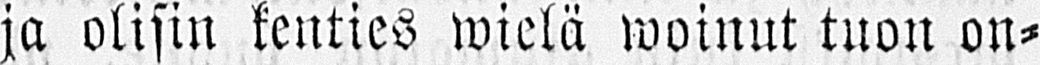ja olisin kenties wielä woinut tuon on-
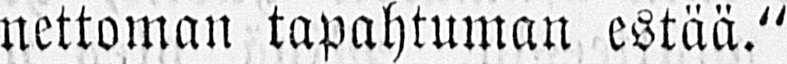nettoman tapahtuman estää."
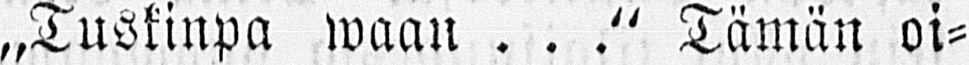„Tuskinpa waan ... "Tämän oi-
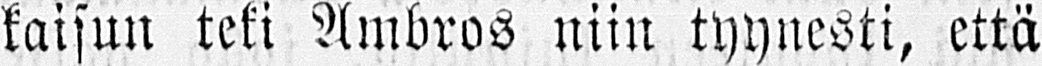kaisun teki Ambros niin tyynesti, että
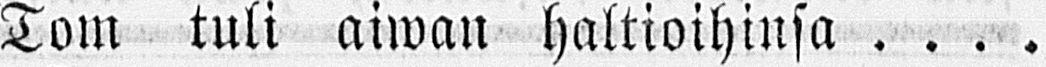Tom tuli aiwan haltioihinsa ....
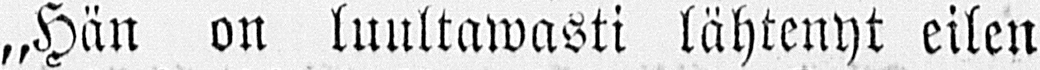„Hän on luultawasti lähtenyt eilen
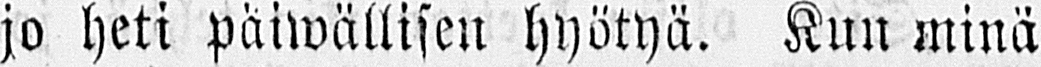jo heti päiwällisen hyötyä. Kun minä
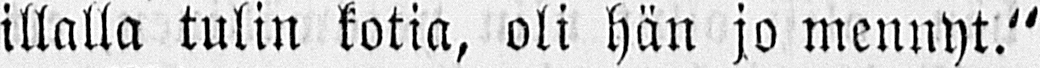illalla tulin kotia, oli hän jo mennyt."
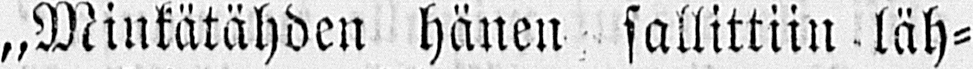„Minkätähden hänen sallittiin läh-
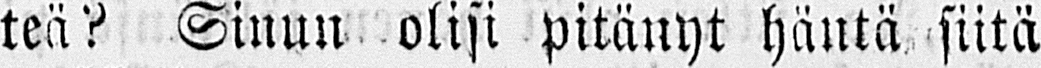teä? Sinun olisi pitänyt häntä siitä
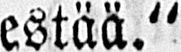estää."
